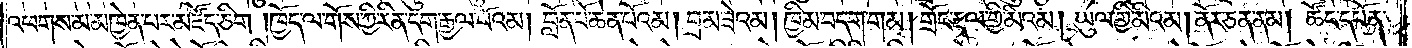འཕགས་མ་མཁྱེན་པར་མཛོད་ཅིག །ཁྱོད་ལ་གོས་ཀྱི་རིན་དག་རྒྱལ་པོའམ། བློན་པོ་ཆེན་པོའམ། བྲམ་ཟེའམ། ཁྱིམ་བདག་གམ། གྲོང་རྡལ་གྱི་མིའམ། ཡུལ་གྱི་མིའམ། ནོར་ཅན་ནམ། ཚོང་དཔོན་
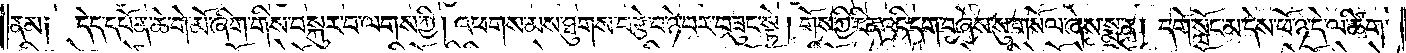ནམ༑ དེད་དཔོན་ཆེ་གེ་མོ་ཞིག་གིས་བསྐུར་བ་ལགས་ཀྱི། འཕགས་མས་ཐུགས་བརྩེ་བ་ཉེ་བར་བཟུང་སྟེ། གོས་ཀྱི་རིན་འདི་དག་བཞེས་སུ་གསོལ་ཞེས་སྨྲ་ན། དགེ་སློང་མ་དེས་ཕོ་ཉ་དེ་ལ་ཚིག་
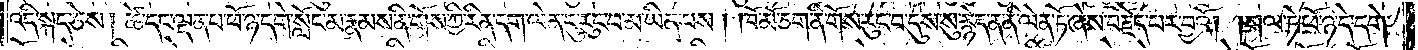འདི་སྐད་ཅེས། ཚེ་དང་ལྡན་པ་ཕོ་ཉ་དགེ་སློང་མ་རྣམས་ནི་གོས་ཀྱི་རིན་དག་ལེན་དུ་རུང་བ་མ་ཡིན་པས། ཁོ་མོ་ཅག་ནི་གོས་རུང་བ་དུས་སུ་རྙེད་ན་ནི་ལེན་ཏོ་ཞེས་བརྗོད་པར་བྱའོ། །གལ་ཏེ་ཕོ་ཉ་དེ་དགེ་
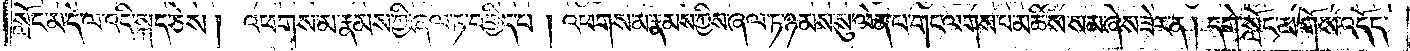སློང་མ་དེ་ལ་འདི་སྐད་ཅེས། འཕགས་མ་རྣམས་ཀྱི་ཞལ་ཏ་བགྱིད་པ། འཕགས་མ་རྣམས་ཀྱིས་ཞལ་ཏ་ཉམས་སུ་ལེན་པ་གང་ལགས་པ་མཆིས་སམ་ཞེས་ཟེར་ན། དགེ་སློང་མ་གོས་འདོད་
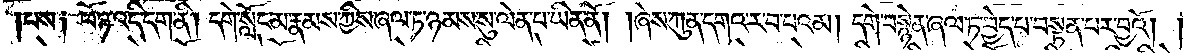པས༑ ཕོ་ཉ་འདི་དག་ནི། དགེ་སློང་མ་རྣམས་ཀྱིས་ཞལ་ཏ་ཉམས་སུ་ལེན་པ་ཡིན་ནོ། ཞེས་ཀུན་དགའ་ར་བ་བའམ། དགེ་བསྙེན་ཞལ་ཏ་བྱེད་པ་བསྟན་པར་བྱའོ། །
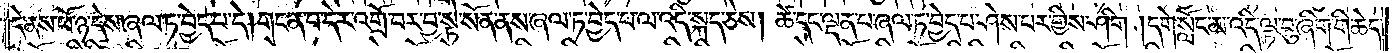དེ་ནས་ཕོ་ཉ་དེས་ཞལ་ཏ་བྱེད་པ་དེ། གང་ན་བ་དེར་འགྲོ་བར་བྱ་སྟེ་སོན་ནས་ཞལ་ཏ་བྱེད་པ་ལ་འདི་སྐད་ཅེས། ཚེ་དང་ལྡན་པ་ཞལ་ཏ་བྱེད་པ་ཤེས་པར་གྱིས་ཤིག །དགེ་སློང་མ་འདི་ལྟ་བུ་ཞིག་གི་ཆེད་
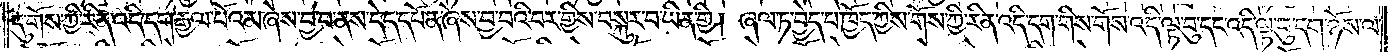དུ་གོས་ཀྱི་རིན་འདི་དག་རྒྱལ་པོའམ་ཞེས་བྱ་བ་ནས་དེད་དཔོན་ཞེས་བྱ་བའི་བར་གྱིས་བསྐུར་བ་ཡིན་གྱི། ཞལ་ཏ་བྱེད་པ་ཁྱོད་ཀྱིས་གོས་ཀྱི་རིན་འདི་དག་གིས་གོས་འདི་ལྟ་བུ་དང་འདི་ལྟ་བུ་དག་ཉོས་ལ་
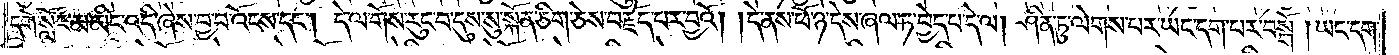དགེ་སློང་མ་མིང་འདི་ཞེས་བྱ་བ་འོངས་དང༌། དེ་ལ་གོས་རུང་བ་དུས་སུ་སྐོན་ཅིག་ཅེས་བརྗོད་པར་བྱའོ། །དེ་ནས་ཕོ་ཉ་དེས་ཞལ་ཏ་བྱེད་པ་དེ་ལ། ཤིན་ཏུ་ལེགས་པར་ཡང་དག་པར་བསྒོ། ཡང་དག་
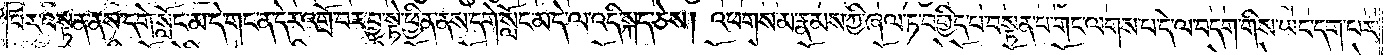པར་བསྟན་ནས་དགེ་སློང་མ་དེ་གང་ན་དེར་འགྲོ་བར་བྱ་སྟེ་ཕྱིན་ནས་དགེ་སློང་དེ་ལ་འདི་སྐད་ཅེས། འཕགས་མ་རྣམས་ཀྱི་ཞལ་ཏ་བགྱིད་པ་བསྟན་པ་གང་ལགས་པ་དེ་ལ་བདག་གིས་ཡང་དག་པར་
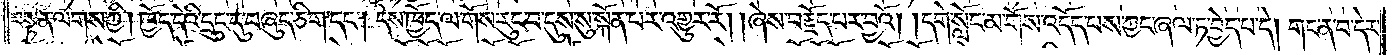བསྟན་ལགས་ཀྱི། ཁྱོད་དེའི་དྲུང་དུ་བཞུད་ཅིག་དང༌། དེས་ཁྱོད་ལ་གོས་རུང་བ་དུས་སུ་སྐོན་པར་འགྱུར་རོ། །ཞེས་བརྗོད་པར་བྱའོ། །དགེ་སློང་མ་གོས་འདོད་པས་ཀྱང་ཞལ་ཏ་བྱེད་པ་དེ། གང་ན་བ་དེར་
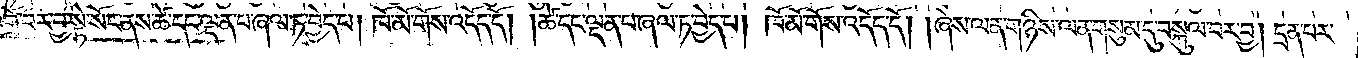འགྲོ་བར་བྱ་སྟེ་སོང་ནས་ཚེ་དང་ལྡན་པ་ཞལ་ཏ་བྱེད་པ། ཁོ་མོ་གོས་འདོད་དོ། །ཚེ་དང་ལྡན་པ་ཞལ་ཏ་བྱེད་པ། ཁོ་མོ་གོས་འདོད་དོ། །ཞེས་ལན་གཉིས་ལན་གསུམ་དུ་བསྐུལ་བར་བྱ། དྲན་པར་
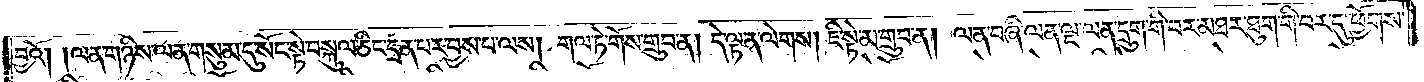བྱའོ། །ལན་གཉིས་ལན་གསུམ་དུ་སོང་སྟེ་བསྐུལ་ཅིང་དྲན་པར་བྱས་པ་ལས། གལ་ཏེ་གོས་གྲུབ་ན། དེ་ལྟ་ན་ལེགས། ཇི་སྟེ་མ་གྲུབ་ན། ལན་བཞི་ལན་ལྔ་ལན་དྲུག་གི་བར་མཐར་ཐུག་གི་བར་དུ་ཕྱོགས་
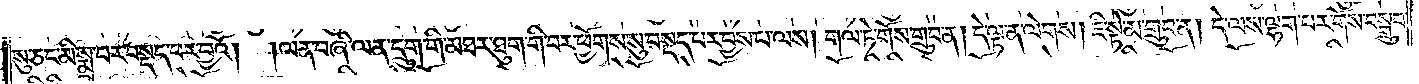སུ་ཅང་མི་སྨྲ་བར་བསྡད་པར་བྱའོ། །ལན་བཞི་ལན་དྲུག་གི་མཐར་ཐུག་གི་བར་ཕྱོགས་སུ་བསྡད་པར་བྱས་པ་ལས། གལ་ཏེ་གོས་གྲུབ་ན། དེ་ལྟ་ན་ལེགས། ཇི་སྟེ་མ་གྲུབ་ན། དེ་ལས་ལྷག་པར་གོས་བསྒྲུབ་
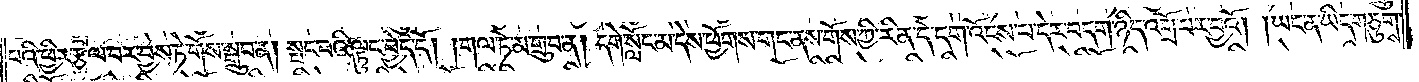པའི་ཕྱིར་རྩལ་བར་བྱས་ཏེ་གོས་སྒྲུབ་ན། སྤང་བའི་ལྟུང་བྱེད་དོ། །གལ་ཏེ་མ་གྲུབ་ན། དགེ་སློང་མ་དེས་ཕྱོགས་གང་ནས་གོས་ཀྱི་རིན་དེ་དག་འོངས་པ་དེར་བདག་ཉིད་འགྲོ་བར་བྱའོ། །ཡང་ན་ཡིད་གཅུགས་
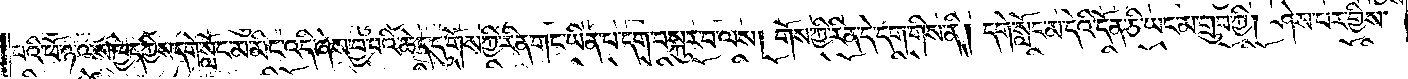པའི་ཕོ་ཉ་ལས་ཁྱེད་ཀྱིས་དགེ་སློང་མ་མིང་འདི་ཞེས་བྱ་བའི་ཆེད་དུ་གོས་ཀྱི་རིན་གང་ཡིན་པ་དེ་དག་བསྐུར་བ་ལས། གོས་ཀྱི་རིན་དེ་དག་གིས་ནི། དགེ་སློང་མ་དེའི་དོན་ཅི་ཡང་མ་གྲུབ་ཀྱི། ཤེས་པར་གྱིས་
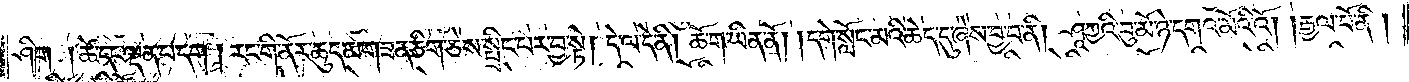ཤིག །ཚེ་དང་ལྡན་པ་དག །རང་གི་ནོར་ཆུད་མ་གཟན་ཅིག་ཅེས་སྤྲིང་པར་བྱ་སྟེ། དེ་ལ་དེ་ནི། ཆོ་ག་ཡིན་ནོ། །དགེ་སློང་མའི་ཆེད་དུ་ཞེས་བྱ་བ་ནི། ཤཱཀྱའི་བུ་མོ་ཉེ་དགའ་མོའི་འོ། །རྒྱལ་པོ་ནི།
